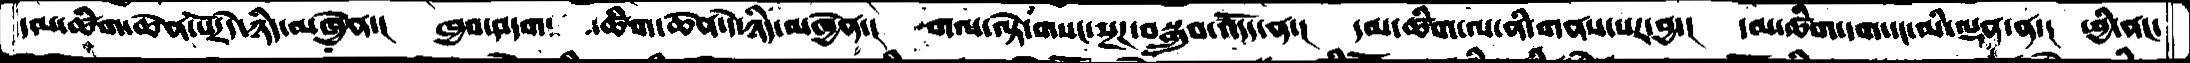དམ་ཚིག་ཆེན་པོར་དེ་ཉིད་མཁྱེན་།  ཁྱབ་བདག་ ཚིག་ཆེན་དེ་ཉིད་མཁྱེན་།  གལ་ཏེ་གསང་སྔཌ་བསྒྲུབ་འདོད་ན་།  དམ་ཚིག་ལ་ནི་གནས་པར་བྱ་།  དམ་ཚིག་དག་དང་མི་ལྡན་ན་།  ཕྱི་ནང་
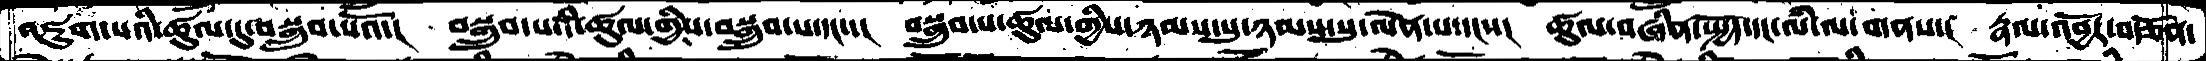འཇུག་པའི་ཚུལ་དུ་བསྒྲུབ་པའོ་།  བསྒྲུབ་པའི་ཚུལ་གྱིས་བསྒྲུབ་པ་དང་་།  བསྒྲུབ་པ་ཚུལ་གྱིས་ཉམས་སུ་ལེན་པ་དང་་།  ཚུལ་བཞིན་སྤྱོད་དང་ལཾ་ལ་གནས་།  རྣལ་འབྱོར་བརྩོན་
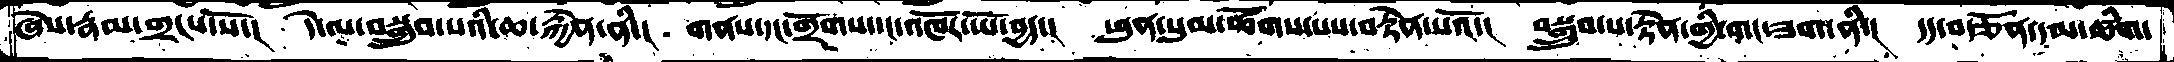ཞེས་རྣམ་གྲངས་སོ་།  དེ་ལ་བསྒྲུབ་པའི་ཆ་རྐྱེན་ནི་།  གནས་དང་གྲོགས་དང་འཁོར་ཡོ་བྱད་།  ཕུན་སུམ་ཚོགས་པས་བརྟེན་པའོ་།  བསྒྲུབ་པ་རྟེན་གྱི་གང་ཟག་ནི་།  དད་བརྩོན་དམ་ཚིག་
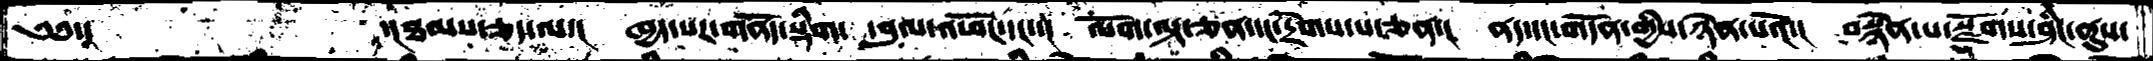༅༅་།      ་།ཐམས་ཅད་ལ་།  ཁྱད་པར་གནོད་སྡིག་དབུལ་འཕོང་དང་།  ལོག་ལྟ་ཅན་དང་དྲེགས་པ་ཅན་།  ནད་དང་གདོན་གྱིས་ཉེན་པའོ་།  བསྙེན་པ་སྫོགས་ཤིང་ནུས་
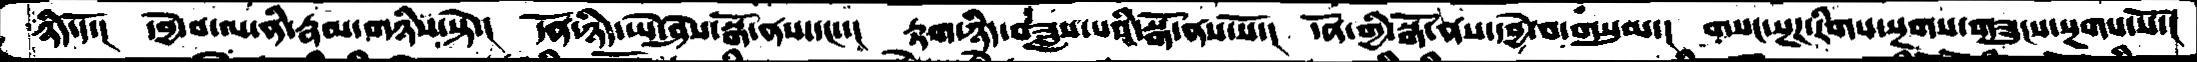ཉིད་དོ་།  དབྱེ་བ་ལ་ནི་རྣམ་གཉིས་སྟེ་།  དོན་ཉིད་ཡེ་ཤེས་སྒོ་ནས་དང་་།  རྟག་ཉིད་བཟླས་པའི་སྒོ་ནས་སོ་།  དོན་གྱི་སྒོ་ནས་དབྱེ་བ་གསུམ་།  གསང་སྔཌ་རིགས་སྔཌ་གཟུངས་སྔགས་སོ་།
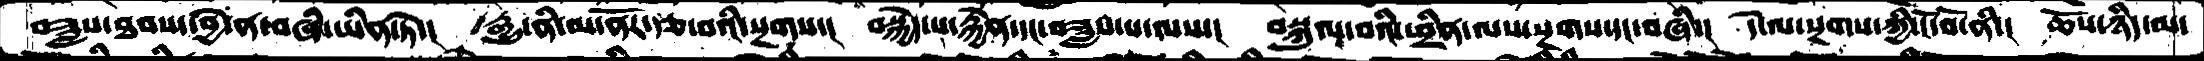བཟླས་ཐབས་དབྱེ་ན་བཞི་ཡིན་ཏེ་།   རྒྱུ་ནི་མ་ནོར་རྩ་བའི་སྔགས་།  བསྐྱེད་པ་རྐྱེན་དང་བཟླས་པ་ལས་།  བསྐུལ་བའི་ཕྲིལ་ལས་སྔགས་དང་བཞི་།  དེ་ལ་སྔགས་ཀྱི་ངོ་བོ་ནི་།  ཆོས་ཉིད་མ་
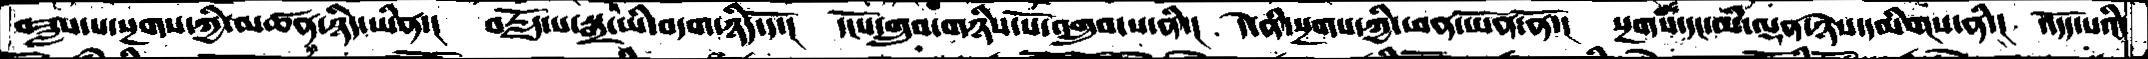བཟླས་པ་སྔགས་ཀྱི་མཚན་ཉིད་ཡིན་།   བརྗོད་པ་སྒྲ་ཡི་བདག་ཉིད་དོ་།  དངོས་གྲུབ་གཉིས་པོ་འགྲུབ་པ་ནི་།  དེ་ནི་སྔགས་ཀྱི་ཕན་ཡོན་ནོ་།  སྔགས་དང་མི་ལྡན་ཉེས་དམིགས་ནི་།  འདོད་པའི་
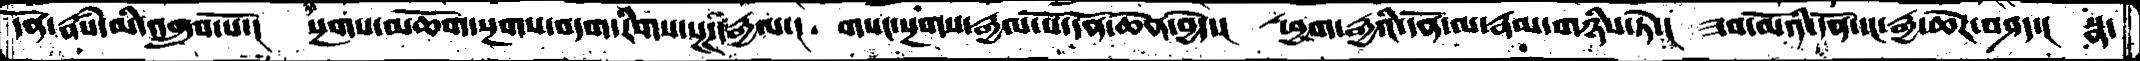དོན་རྣཾས་མི་འགྲུབ་པོ་།  སྔགས་མཆོག་སྔགས་བདག་རིགས་སྔཌ་རྒྱལ་།  གསང་སྔགས་རྒྱལ་པོ་དོན་ཆེན་བྱེད་།  ཕྱག་རྒྱའི་དོན་ལ་རྣམ་གཉིས་ཏེ་།  ཟབ་མོའི་དོན་དང་རྒྱ་ཆེར་བཤད་།  སྣ་
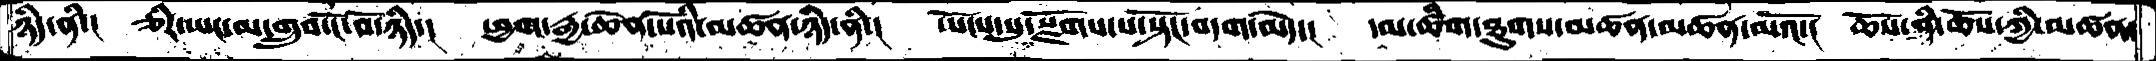ཉིད་ནི་།   ཅིར་ཡང་མ་གྲུབ་ངོ་བོ་ཉིད་།  ཕྱག་རྒྱ་ཆེན་པོའི་མཚན་ཉིད་ནི་།  ཡོངས་སུ་སྫོགས་པ་སྟོང་བདག་མེད་།  དམ་ཚིག་ཐུགས་མཚན་མཚན་མའོ་།   ཆོས་ནི་ཆོས་ཀྱི་མཚན་
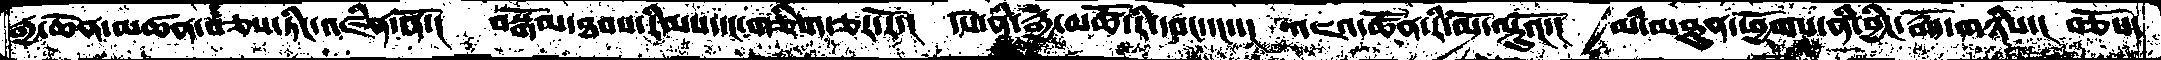རྒྱ་ཆེན་མཚན་བཅས་ཏིང་འཛིན་ནོ་།  བསྒོམ་ཐབས་རིམས་དང་གཅིག་ཅར་རོ་།  དཔེ་ནི་རྒྱ་མཚོ་རི་དབང་དང་་།  འཇའ་ཚོན་རི་མོ་ལྟུའོ་།  མི་མཐུན་ཕྱོགས་ནི་བྱིང་རྒོད་གཉིས་་།  བཅོས་
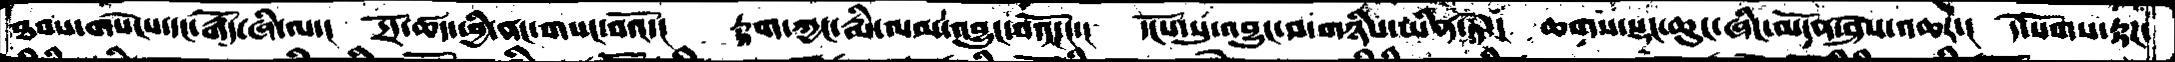ཐབས་གསེངས་དང་རྒོད་ཞི་ལ་།  དྲོད་ཚད་ཕྱི་ནང་གསང་བའོ་།  རྟག་ཀྱང་རྨི་ལམ་འབྱུང་བའོ་ང་།  དངོས་སུ་འབྱུང་བ་གཉིས་ཡིན་ཏེ་།  ཆགས་སྡང་ཆུང་ཞིང་མངོན་ཤེས་འའཆར་།  དེ་སོགས་རྟཌ་
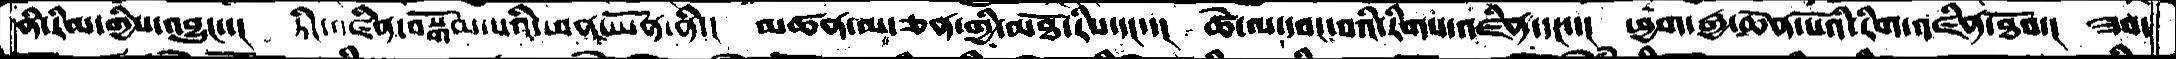ནི་རིམ་གྱིས་འབྱུང་་།  ཏིང་འཛིན་བསྒོམ་པའི་ཕན་ཡོན་ནི་།  མཚན་མ་ཅན་གྱི་མཐོ་རིས་དང་་།  ཚེ་ལ་དབང་བའི་རིགས་འཛིན་དང་་།  ཕྱག་རྒྱ་ཆེན་པོའི་རིག་འཛིན་ཐོབ་།  ཟབ་
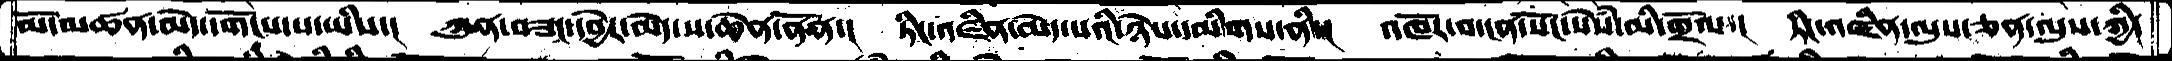མོ་མཚན་མེད་དགོངས་པ་ཡིན་་།  ཀུན་བཟང་དབྱེར་མེད་ས་ཆེན་ནོན་།  ཏིང་འཛིན་མེད་པའི་ཉེས་དམིགས་ནི་།  འཁོར་བ་ངན་སོང་སེཾས་མི་གྲོལ་།  ཏིང་འཛིན་ལུས་ཅན་ལུས་ཀྱི་
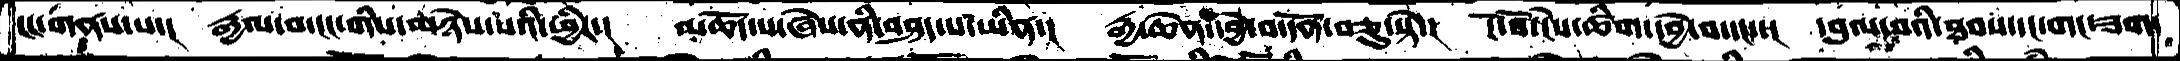ངང་གནས་པ་།  རྒྱལ་བ་ངང་གིས་མཉེས་པའི་ཕྱིར་།  མཆོད་པ་ཞེས་ནི་བཤད་པ་ཡིན་།  རྒྱ་ཆེན་དབྱེ་བ་དོན་བཅུ་སྟེ་།  ངོ་བོ་ངེས་ཚིག་དབྱེ་བ་དང་་།  དབུལ་བའི་ཐབས་དང་གང་ཟག་
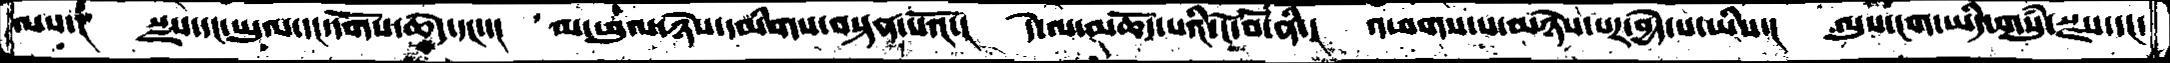ལས།  སྫས་དང་ཡུལ་དང་དགོས་ཆེད་དང་་།  མ་ཕུལ་ཉེས་དམིགས་བསྟན་པའོ་།  དེ་ལ་མཆོད་པའི་ངོ་བོ་ནི་།  འཕགས་པ་མཉེས་པར་བྱེད་པ་ཡིས་།  ལུས་ངག་ཡིད་གསུཾ་སྫས་དང་
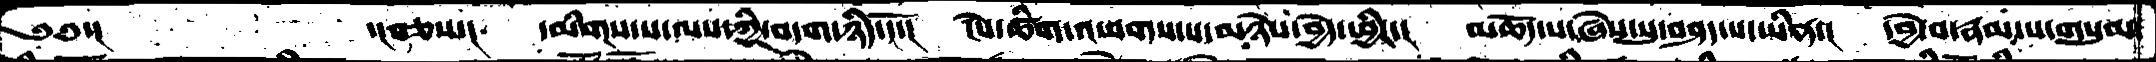༄༅་།      ་།བཅས་།  དམིགས་པ་ལས་ཀྱི་བདག་ཉིད་དོ་།  ངེས་ཚིག་འཕགས་པ་མཉེས་བྱེད་ཕྱིར་།  མཆོད་པ་ཞེས་སུ་བཤད་པ་ཡིན་།  དབྱེ་བ་རྣམ་པ་གསུམ་
